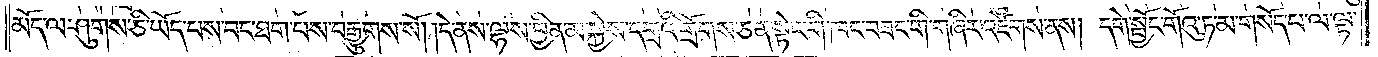མོད་ལ་ཤུགས་ཅི་ཡོད་པས་བང་ཐག་པས་བརྒྱུགས་སོ། །དེ་ནས་ལྷས་བྱིན་མ་སྐྱེས་དགྲའི་གྲོགས་ཅན་སྟེང་གི་ཁང་བཟང་གི་གཞིར་འཛེགས་ནས། དགེ་སྦྱོང་གོའུ་ཏ་མ་གསོད་པ་ལ་ལྟ་
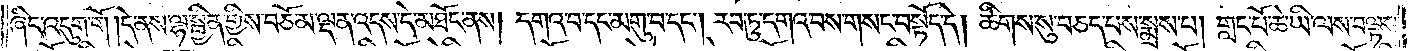ཞིང་འདུག་གོ །དེ་ནས་ལྷ་སྦྱིན་གྱིས་བཅོམ་ལྡན་འདས་དེ་མཐོང་ནས། དགའ་བ་དང་མགུ་བ་དང༌། རབ་ཏུ་དགའ་བས་གསང་བསྟོད་དེ། ཚིགས་སུ་བཅད་པས་སྨྲས་པ། གླང་པོ་ཆེ་ཡི་ལས་བལྟས་
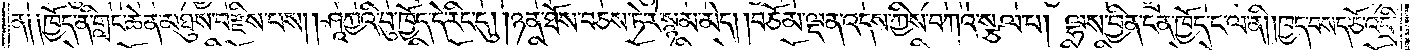ན། །ཁྱོད་ནི་གླང་ཆེན་མཐུས་བརྫིས་པས། །ཤཱཀྱའི་བུ་ཁྱོད་དེ་རིང་དུ། །ཉན་ཐོས་བཅས་ཏེ་རེ་སྙམ་མེད། །བཅོམ་ལྡན་འདས་ཀྱིས་བཀའ་སྩལ་པ། ལྷས་བྱིན་ངན་ཁྱོད་ང་ལ་ནི། །ཁྱད་བསད་ཅོ་འདྲི་
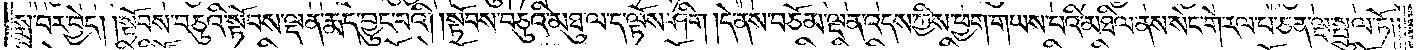སྨྲ་བར་བྱེད། །སྟོབས་བཅུའི་སྟོབས་ལྡན་རྨད་བྱུང་བའི། །སྟོབས་བཅུའི་མཐུ་ལ་ད་ལྟོས་ཤིག །དེ་ནས་བཅོམ་ལྡན་འདས་ཀྱིས་ཕྱག་གཡས་པའི་མཐིལ་ནས་སེང་གེ་རལ་པ་ཅན་ལྔ་སྤྲུལ་ཏོ། །
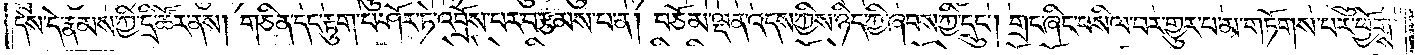དེས་དེ་རྣམས་ཀྱི་དྲི་ཚོར་ནས། གཅིན་དང་རྟུག་པ་ཤོར་ཏེ་འབྲོས་པར་བརྩམས་པ་ན། བཅོམ་ལྡན་འདས་ཀྱིས་ཉིད་ཀྱི་ཞབས་ཀྱི་དྲུང༌། གྲང་ཞིང་བསིལ་བར་གྱུར་པ་མ་གཏོགས་པར་ཕྱོགས་
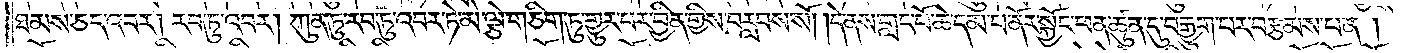ཐམས་ཅད་འབར། རབ་ཏུ་འབར། ཀུན་ཏུ་རབ་ཏུ་འབར་ཏེ་མེ་ལྕེ་གཅིག་ཏུ་གྱུར་པར་བྱིན་གྱིས་བརླབས་སོ། །དེ་ནས་གླང་པོ་ཆེ་དམ་པ་ནོར་སྐྱོང་ཕན་ཚུན་དུ་བརྒྱུག་པར་བརྩམས་པ་ན།
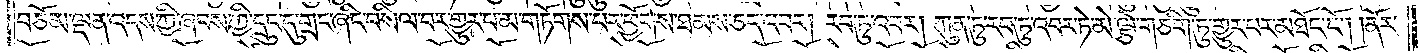བཅོམ་ལྡན་འདས་ཀྱི་ཞབས་ཀྱི་དྲུང་དུ་གྲང་ཞིང་བསིལ་བར་གྱུར་པ་མ་གཏོགས་པར་ཕྱོགས་ཐམས་ཅད་འབར། རབ་ཏུ་འབར། །ཀུན་ཏུ་རབ་ཏུ་འབར་ཏེ་མེ་ལྕེ་གཅིག་ཏུ་གྱུར་པར་མཐོང་ངོ༌། །ནོར་
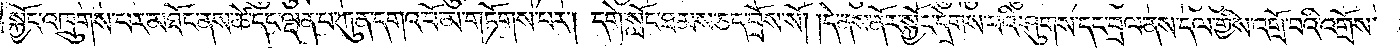སྐྱོང་འཁྲུགས་པར་མཐོང་ནས་ཚེ་དང་ལྡན་པ་ཀུན་དགའ་བོ་མ་གཏོགས་པར། དགེ་སློང་ཐམས་ཅད་བྲོས་སོ། །དེ་ནས་ནོར་སྐྱོང་དྲེགས་པའི་ཤུགས་དང་བྲལ་ནས་དལ་གྱིས་འགྲོ་བའི་འགྲོས་
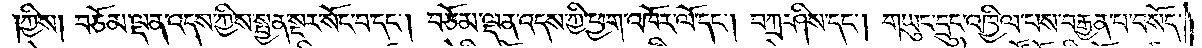ཀྱིས། བཅོམ་ལྡན་འདས་ཀྱིས་སྤྱན་སྔར་སོང་བ་དང༌། བཅོམ་ལྡན་འདས་ཀྱི་ཕྱག་འཁོར་ལོ་དང༌། བཀྲ་ཤིས་དང༌། གཡུང་དྲུང་འཁྱིལ་པས་བརྒྱན་པ་བསོད་
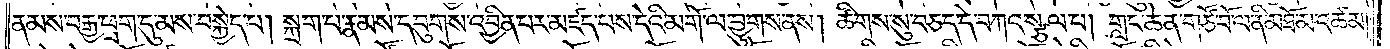ནམས་བརྒྱ་ཕྲག་དུ་མས་བསྐྱེད་པ། སྐྲག་པ་རྣམས་དབུགས་འབྱིན་པར་མཛད་པས་དེའི་མགོ་ལ་བྱུགས་ནས། ཚིགས་སུ་བཅད་དེ་བཀའ་སྩལ་པ། གླང་ཆེན་གཙོ་བོ་ལ་ནི་མཐོ་མ་འཚམ༎
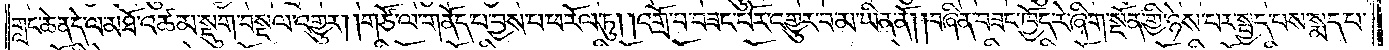གླང་ཆེན་དེ་ལ་མཐོ་འཚམ་སྡུག་བསྔལ་འགྱུར། །གཙོ་ལ་གནོད་པ་བྱས་པ་ཕ་རོལ་ཏུ། །འགྲོ་བ་བཟང་པོར་འགྱུར་བ་མ་ཡིན་ནོ། །བཞིན་བཟང་ཁྱོད་རེ་ཞིག་སྔོན་གྱི་ཉེས་པར་སྤྱད་པས་སྨད་པ་
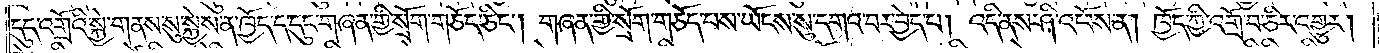དུད་འགྲོའི་སྐྱེ་གནས་སུ་སྐྱེས་ན་ཁྱོད་ད་དུང་གཞན་གྱི་སྲོག་གཅོད་ཅིང༌། གཞན་གྱི་སྲོག་གཅོད་པས་ཡོངས་སུ་དགའ་བར་བྱེད་པ། འདི་ནས་ཤི་འཕོས་ན། ཁྱོད་ཀྱི་འགྲོ་བ་ཅིར་འགྱུར།
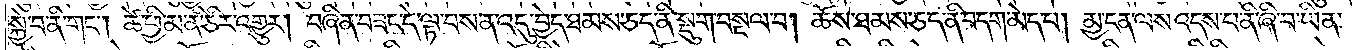སྐྱེ་བ་ནི་གང༌། ཚེ་ཕྱི་མ་ནི་ཅིར་འགྱུར། བཞིན་བཟང་དེ་ལྟ་བས་ན་འདུ་བྱེད་ཐམས་ཅད་ནི་སྡུག་བསྔལ་བ། ཆོས་ཐམས་ཅད་ནི་བདག་མེད་པ། མྱ་ངན་ལས་འདས་པ་ནི་ཞི་བ་ཡིན་
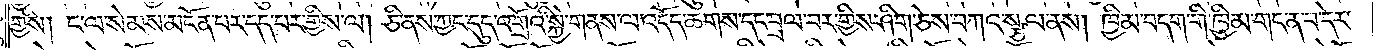གྱིས། ང་ལ་སེམས་མངོན་པར་དད་པར་གྱིས་ལ། ཅི་ནས་ཀྱང་དུད་འགྲོའི་སྐྱེ་གནས་ལ་འདོད་ཆགས་དང་བྲལ་བར་གྱིས་ཤིག་ཅེས་བཀའ་སྩལ་ནས། ཁྱིམ་བདག་གི་ཁྱིམ་གང་ན་བ་དེར་
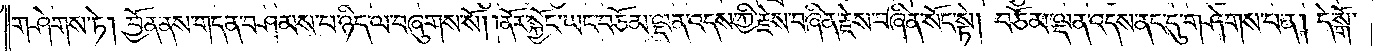གཤེགས་ཏེ། བྱོན་ནས་གདན་བཤམས་པ་ཉིད་ལ་བཞུགས་སོ། །ནོར་སྐྱོང་ཡང་བཅོམ་ལྡན་འདས་ཀྱི་རྗེས་བཞིན་རྗེས་བཞིན་སོང་སྟེ། བཅོམ་ལྡན་འདས་ནང་དུ་གཤེགས་པ་ན། དེ་སྒོ་
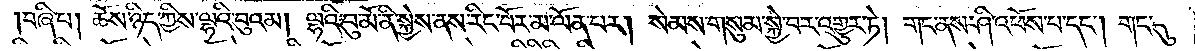བཞི་པ། ཆོས་ཉིད་ཀྱིས་ལྷའི་བུའམ། ལྷའི་བུ་མོ་ནི་སྐྱེས་ནས་རིང་པོར་མ་ལོན་པར། སེམས་གསུམ་སྐྱེ་བར་འགྱུར་ཏེ། གང་ནས་ཤི་འཕོས་པ་དང༌། གང་དུ་
